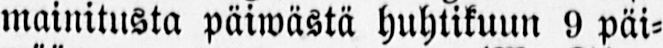mainitusta päiwästä huhtikuun 9 päi-
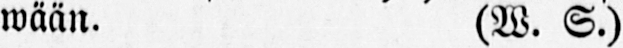wään. (W. S.)
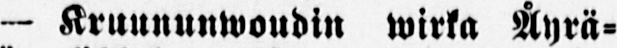— Kruununwoudin wirka Äyrä-
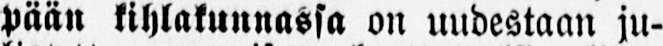pään kihlakunnassa on uudestaan ju-
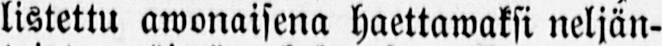listettu awonaisena haettawaksi neljän-
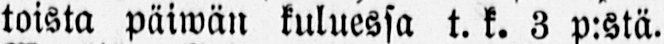toista päiwän kuluessa t.k. 3 p:stä.
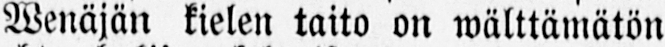Wenäjän kielen taito on wälttämätön
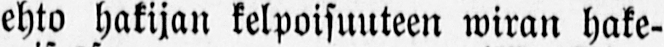ehto hakijan kelpoisuuteen wiran hake-
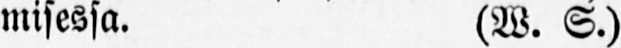misessa. (W. S.)
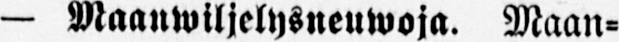— Maanwiljelysneuwoja. Maan-
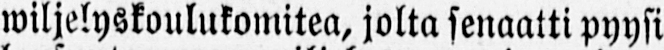wiljelyskoulukomitea, jolta senaatti pyysi
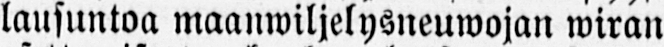lausuntoa maanwiljelysneuwojan wiran
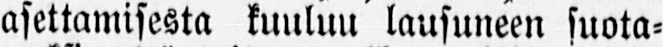asettamisesta kuuluu lausuneen suota-
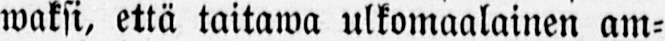waksi, että taitawa ulkomaalainen am-
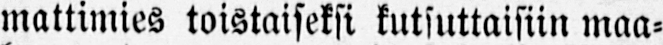mattimies toistaiseksi kutsuttaisiin maa-
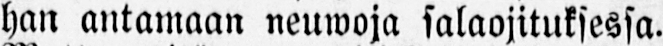han antamaan neuwoja salaojituksessa.
